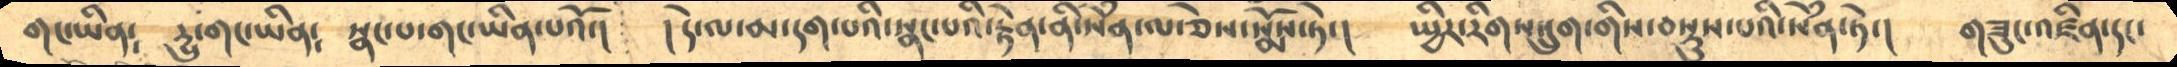གང་ཡིན༴     དྱུ་གང་ཡིན༴    སྣང་བ་གང་ཡིན་པའོ་།    ། དེ་ལ་མ་དག་པའི་སྣང་པའི་རྟེན་ནི་སེཾན་ལ་ཅེས་སྨོས་ཏེ་།   སྤྱིར་རིགས་དྲུག་གིས་བསྡུས་པའི་སེཾན་ཏེ་།     གཟུང་འཛིན་དང་
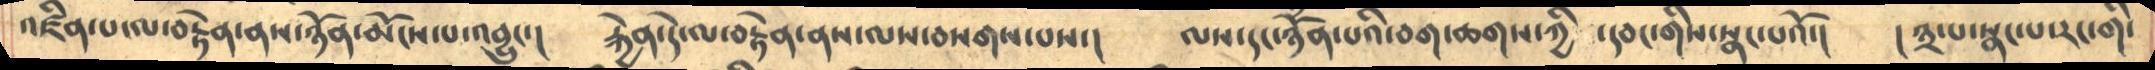འཛིན་པ་ལ་བརྟེན་ནས་ཉོན་མོངས་པ་འབྱུང་།    རྐྱེན་དེ་ལ་བརྟེན་ནས་ལས་བསགས་པས་།   ལས་དང་ཉོཾན་པའི་བག་ཆགས་ཀྱི ་དབང་གིས་སྣང་པའོ་།   །༣་པ་སྣང་པ་རང་གི་
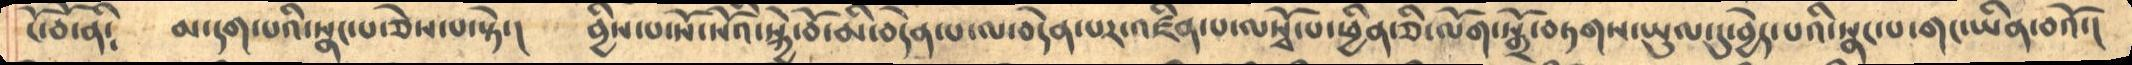ངོ་བོ་ནི༴     མ་དག་པའི་སྣང་པ་ཅེས་པ་སྟེ་།   བྱིས་པ་སོ་སོའི་སྐྱེ་བོ་མི་བདེན་པ་ལ་བདེན་པར་འཛིན་པ་ལསྭོ་པ་ཕྱིན་ཅི་ལོག་སྒྲོ་བཏགས་ཡུལ་དུ་བྱེད་པའི་སྣང་པ་གང་ཡིན་བའོ་།
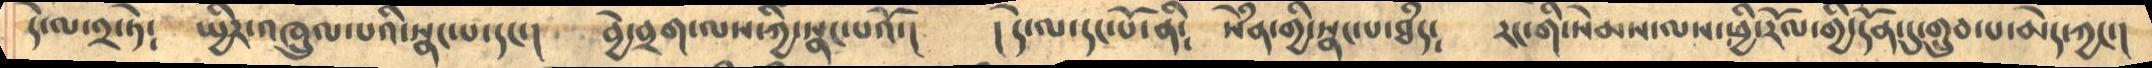དེ་ལ་༢་ཏེ༴     སྤྱིར་འཁྲུལ་པའི་སྣང་པ་དང་།    བྱེ་བྲག་ལས་ཀྱི་སྣང་པའོ་།    ། དེ་ལ་དང་པོ་ནི༴     སེཾན་གྱི་སྣང་པ་ཐཾད༴     རང་གི་སེམས་ལས་ཕྱི་རོལ་གྱི་དོན་དུ་གྲུབ་པ་མེད་ཀྱང་།
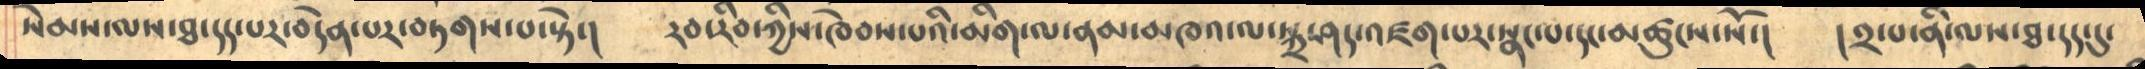སེམས་ལས་ཐ་དད་པར་བདེན་པར་བཏགས་པ་སྟེ་།     རབ་རིབ་ཀྱིས་ཁེབས་པའི་མིག་ལ་ནམ་མཁའ་ལ་སྐྲ་ཤད་འཛག་པར་སྣང་པ་དང་མཚུངས་སོ་།    ། ༢་པ་ནི་ལས་ཐ་དད་དུ་
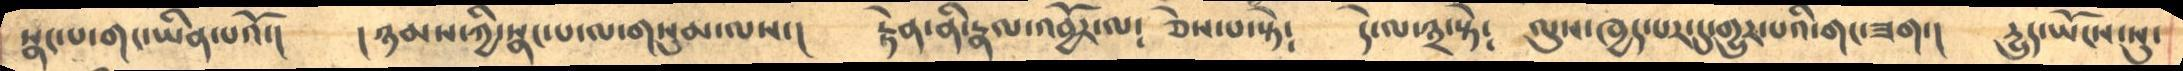སྣང་པ་གང་ཡིན་པའོ་།    ཉམས་ཀྱི་སྣང་པ་ལ་གསུམ་ལས་།    རྟེན་ནི་རྣལ་འབྱོར་ལ༴  ཅེས་པ་སྟེ༴    དེ་ལ་༣་སྟེ༴    ལུས་ཁྱད་པར་དུ་གྱུར་པའི་གང་ཟག་།   དྱུད་ཡོངས་སུ་
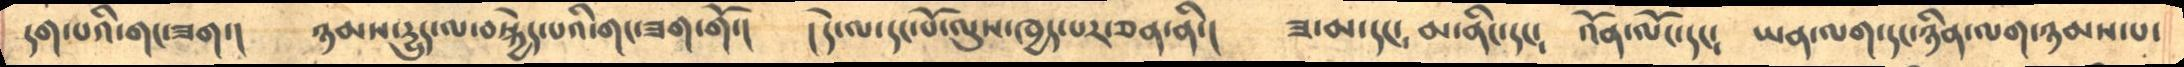དག་པའི་གང་ཟག་།   ཉམས་དྱུད་ལ་བསྐྱེད་པའི་གང་ཟག་གོ་།   ། དེ་ལ་དང་པོ་ལུས་ཁྱད་པར་ཅན་ནི་།    ཟ་མ་དང༴ མ་ནིང་དང༴    འོན་ལོང་དང༴  ཡན་ལག་དང་ཉིན་ལག་ཉམས་པ་
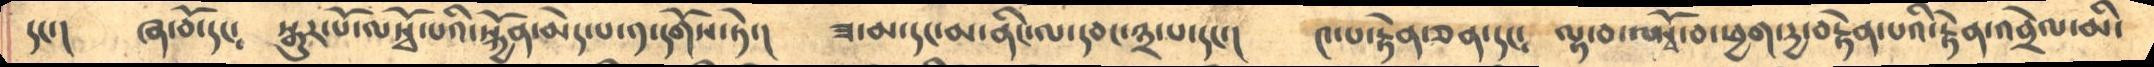དང་།     ཞ་བོ་དང༴      སྒུར་པོ་ལསྭོ་པའི་སྐྱོན་མེད་པ་༡་དགོས་ཏེ་།   ཟ་མ་དང་མ་ནིང་ལ་དབང་༣་པ་དང་།      ༤་པ་རྟེན་ཅན་དང༴    ལྟ་བ་ལསྭོ་བ་ཕྱག་དྱ་བརྟེན་པའི་རྟེན་འབྲེལ་མི་
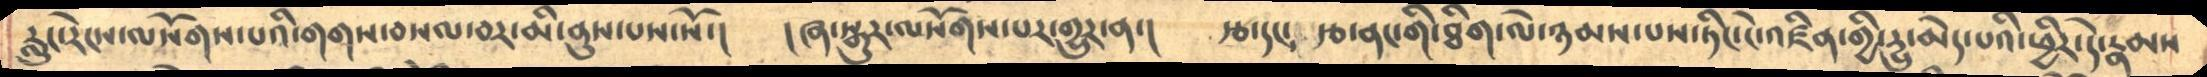རླུང་རེངས་ལསོགས་་པའི་གགས་བསལ་བར་མི་ནུས་པས་སོ་།     ། ཞ་སྒུར་ལསོགས་པར་གྱུར་ན་།    རྩ་དང་རྩ་ནང་གི་ཐིག་ལེ་ཉམས་པས་ཏིང་ངེ་འཛིན་གྱི་དྱུ་མེད་པའི་ཕྱིར་དེ་རྣམས
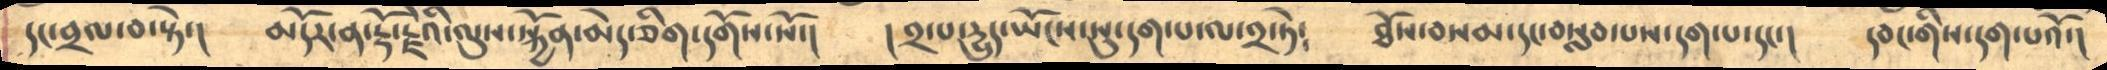དང་བྲལ་བ་སྟེ་།    མདོར་ན་རྡོ་རྗེའི་ལུས་སྐྱོན་མེད་ཅིག་དགོས་སོ་།    ། ༢་པ་དྱུད་ཡོངས་སུ་དག་པ་ལ་༢་ཏེ༴     ཐོས་བསམ་དང་བསླབ་པས་དག་པ་དང་།   དབང་གིས་དག་པའོ་།
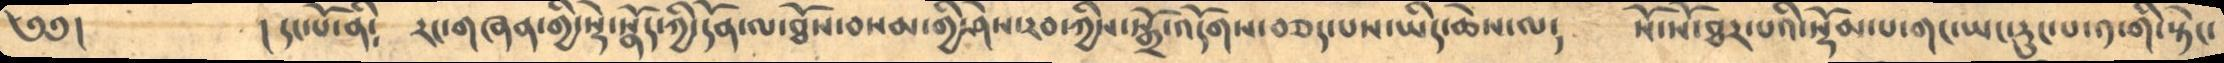༄༅།      ། དང་པོ་ནི༴    རང་གཞན་གྱི་སྡེ་སྣོད་ཀྱི་དོན་ལ་ཐོས་བསམ་གྱི་ཤེས་རབ་ཀྱིས་སྒྲོ་འདོགས་བཅད་པས་ཡིད་ཆེས་ལ༴    སོ་སོར་ཐར་པའི་སྡོམ་པ་གང་ཡང་རུང་པ་༡་གི་སྟེང་
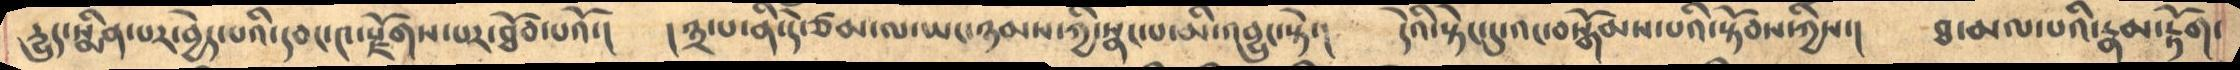དྱུད་སྨིན་པར་བྱེད་པའི་དབང་༤་རྫོགས་པར་ཐོབ་པའོ་།    ། ༣་པ་ནི་དེ་ཙམ་ལ་ཡང་ཉམས་ཀྱི་སྣང་པ་མི་འབྱུང་སྟེ་།    དེའི་སྟེང་དུ་འང་བསྒོམས་པའི་སྟོབས་ཀྱིས་།    ཐ་མལ་པའི་རྣམ་རྟོག་
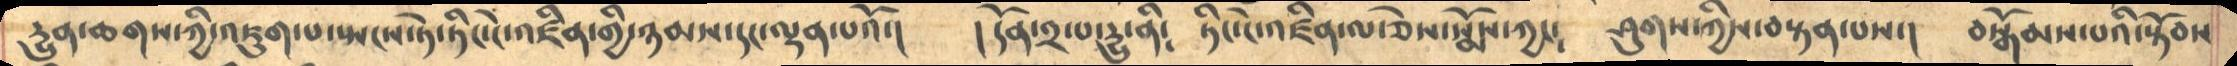དྱུན་ཆགས་ཀྱི་འཇུག་པ་སྤངས་ཏེ་ཏིང་ངེ་འཛིན་གྱི་ཉམས་དང་ལྡན་པའོ་།    ། དོན་༢་པ་དྱུ་ནི༴   ཏིང་ངེ་འཛིན་ལ་ཅེས་སྨོས་ཀྱང༴    ཤུགས་ཀྱིས་བསྟན་པས་།    བསྒོམས་པའི་སྟོབས
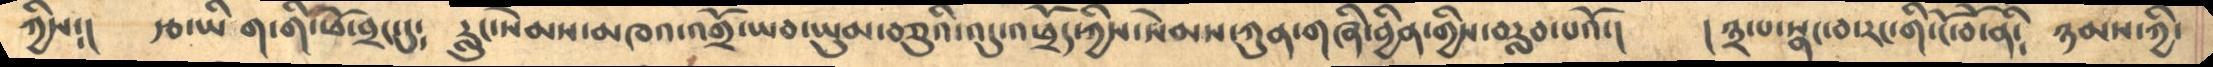ཀྱིས༴།     རྩ་ཡིག་གི་ཕོ་བྲང་དུ༴    རླུང་སེམས་མཁའ་འགྲོ་ཡབ་ཡུམ་བཅུའི་འདུ་འཕྲོད་ཀྱིས་སེམས་ཀུན་གཞི་བྱིན་གྱིས་བརླབ་པའོ་།   ། ༣་པ་སྣང་བ་རང་གི་ངོ་བོ་ནི༴   ཉམས་ཀྱི་
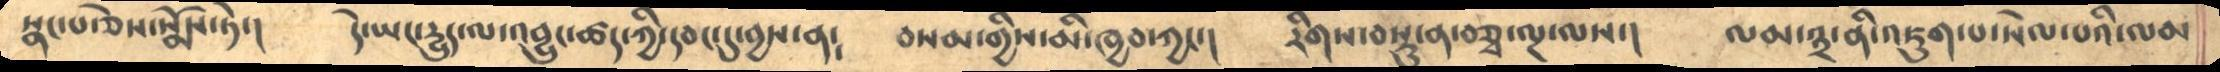སྣང་པ་ཅེས་སྨོས་ཏེ་།      དེ་ཡང་དྱུད་ལ་འབྱུང་ཚད་ཀྱི་དབང་དུ་བྱས་ན༴   བསམ་གྱིས་མི་ཁྱབ་ཀྱང་།   རིགས་བསྡུ་ན་བཅྭ་ལྔ་ལས་།    ལམ་༣་ནི་འཇུག་པ་སེལ་པའི་ལམ
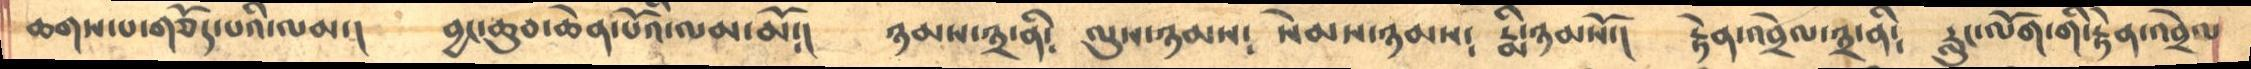ཆགས་པ་གཅོད་པའི་ལམ་།    བྱང་ཆུབ་ཆེན་པོའི་ལམ་མོ༴།    ཉམས་༣་ནི༴    ལུས་ཉམས༴  སེམས་ཉམས༴   རྨི་ཉམསོ་།     རྟེན་འབྲེལ་༣་ནི༴   རླུང་ལོག་གི་རྟེན་འབྲེལ
